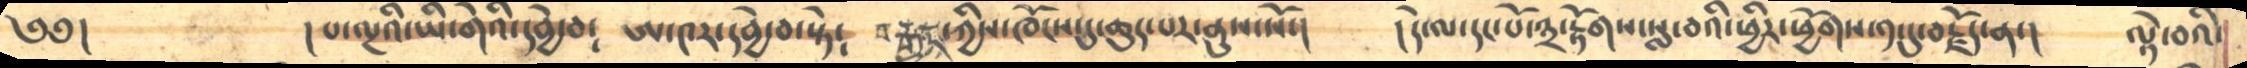༄༅།            །པ་ལྔའི་ཡི་གེའི་དབྱེ་བ༴    ཨ་༤ར་དབྱེ་བ་སྟེ༴    བརྒྱད་ཀྱིས་ཁོངས་དུ་ཆུད་པར་ནུས་སོ་།     །དེ་ལ་དང་པོ་༣་རྟོགས་སླ་བའི་ཕྱིར་ཕྱོགས་༡་དུ་བརྗོད་ན་།    ལྟེ་བའི་
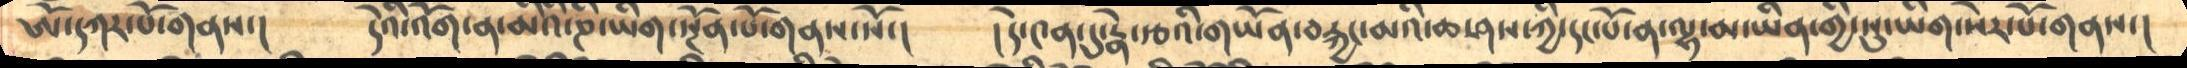ཨོཾ་དཀར་པོ་གནས་།      དེའི་འོག་ན་མིའི་ཎི་ཡིག་སྔོན་པོ་གནས་སོ་།     །དེ་༤ན་དུ་རྣེ་རྩའི་གཡོན་བརྐྱང་མའི་ཆ་ཤས་ཀྱི་དང་པོ་ན་ལྷ་མ་ཡིན་གྱི་སུ་ཡིག་སེར་པོ་གནས་།
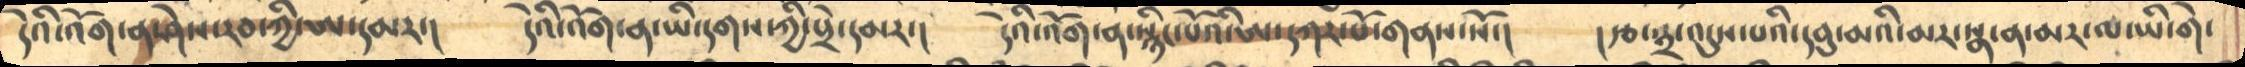དེའི་འོག་ན་ཤེས་རབ་ཀྱི་ཨ་དམར་།       དེའི་འོག་ན་ཡི་དགས་ཀྱི་པྲེ་དམར་།     དེའི་འོག་ན་སྙིང་པོའི་སྙིང་པོའི་ཨ་དཀར་པོ་གནས་སོ་།    །རྩ་༣་འདུས་པའི་དབུ་མའི་མར་སྣ་ན་མར་ལ་ཡི་གེ་
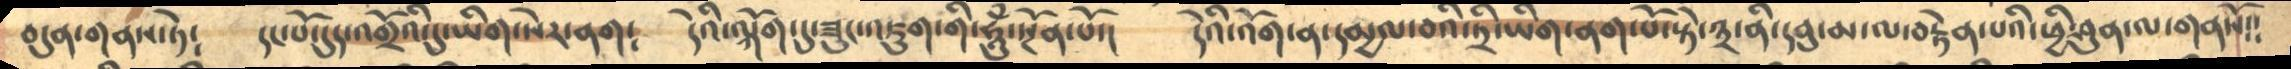བདུན་གནས་ཏེ༴      དང་པོ་དུད་འགྲོའི་དུ་ཡིག་སེར་ནག༴    དེའི་ལྐོག་དུ་ཟུང་འཇུག་གི་ཧཱུཾ་སྔོན་པོ་།    དེའི་འོག་ན་དམྱལ་བའི་ཏྲི་ཡིག་ནག་པོ་སྟེ་༣་ནི་དབུ་མ་ལ་བརྟེན་པའི་ཕྱི་ཤུན་ལ་གནསོ༴༴
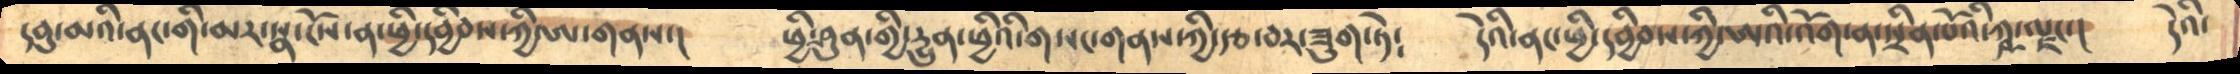དབུ་མའི་ནང་གི་མར་སྣ་ངོས་ན་ཕྱི་དབྱིབས་ཀྱི་ཨ་གནས་།     ཕྱི་ཤུན་གྱི་དྱུན་ཕྱིའི་གསང་གནས་ཀྱི་རྩ་བར་ཟུག་ཏེ༴    དེའི་ནང་ཕྱི་དབྱིབས་ཀྱི་ཨའི་འོག་ན་སྲིན་པོའི་ཀྵ་ལྗང་།    དེའི་
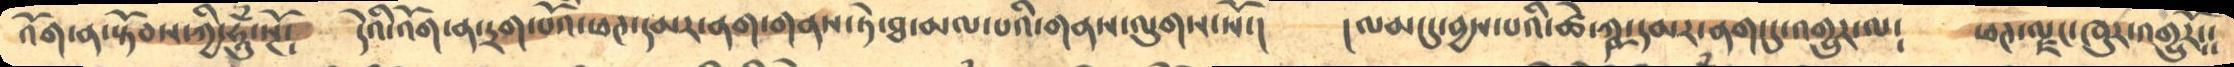འོག་ན་སྟོབས་ཀྱི་ཧཱུཾ་སྔོ༴     དེའི་འོག་ན་དྲག་པོའི་ཕཊ་དམར་ནག་གནས་ཏེ་ཐ་མལ་པའི་གནས་ལུགས་སོ་།     །ལམ་དུ་བྱས་པའི་ཚེ་ཀྵ་དམར་ནག་དུ་འགྱུར་ལ༴   ཕཊ་ལྗང་ཁུར་འགྱུརོ༴༴
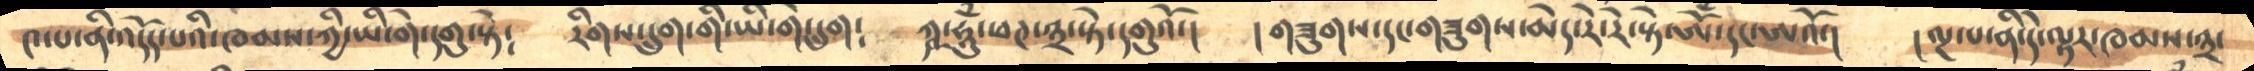༤་པ་ནི་འདོད་པའི་ཁམས་ཀྱི་ཡི་གེ་དགུ་སྟེ༴     རིགས་དྲུག་གི་ཡི་གེ་དྲུག༴    ཀྵ་ཧཱུཾ་ཕཊ་༣་སྟེ་དགུའོ་།     །གཟུགས་དང་གཟུགས་མེད་རེ་རེ་སྟེ་ཨོཾ་དང་ཨའོ་།    །ལྔ་པ་ནི་དེ་ལྟར་ཁམས་༣་
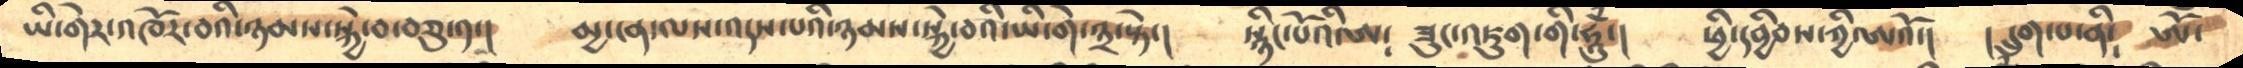ཡི་གེར་འཁོར་བའི་ཉམས་སྐྱེ་བ་བཅུ་༡་།    མྱ་ངན་ལས་འདས་པའི་ཉམས་སྐྱེ་བའི་ཡི་གེ་༣་སྟེ་།     སྙིང་པོའི་ཨ༴    ཟུང་འཇུག་གི་ཧཱུཾ་།   ཕྱི་དབྱིབས་ཀྱི་ཨའོ་།   ། དྲུག་པ་ནི༴  ཨོ་
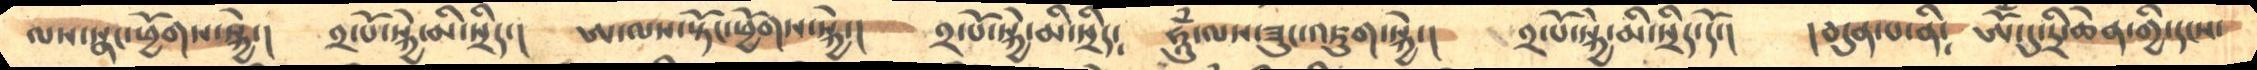ལས་སྣང་ཕྱོགས་སྐྱེ་།    ༢་པོ་སྐྱེ་མི་སྲིད།     ཨ་ལས་སྟོང་ཕྱོགས་སྐྱེ་།    ༢་པོ་སྐྱེ་མི་སྲིད༴     ཧཱུྃ་ལས་ཟུང་འཇུག་སྐྱེ་།   ༢་པོ་སྐྱེ་མི་སྲིད་དོ་།    །བདུན་པ་ནི༴    ཨོཾ་དུ་དྲི་ཆེན་གྱི་དངས་
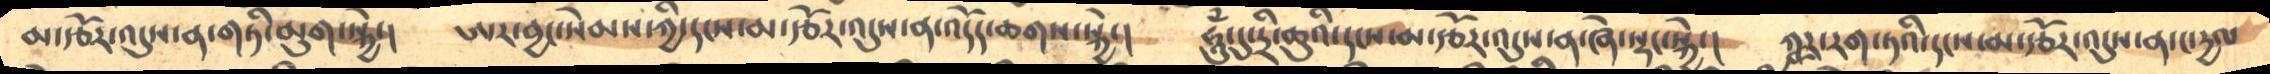མ་རྩོར་འདུས་ན་གཏི་མུག་སྐྱེ་།    ཨར་བྱང་སེམས་ཀྱི་དངས་མ་རྩོར་འདུས་ན་འདོད་ཆགས་སྐྱེ་།     ཧཱུཾ་དུ་དྲི་ཆུའི་དངས་མ་རྩོར་འདུས་ན་ཞེ་སྡང་སྐྱེ་།    ཀྵར་རག་ཏའི་དངས་མ་རྩོར་འདུས་ན་ང་དྱལ
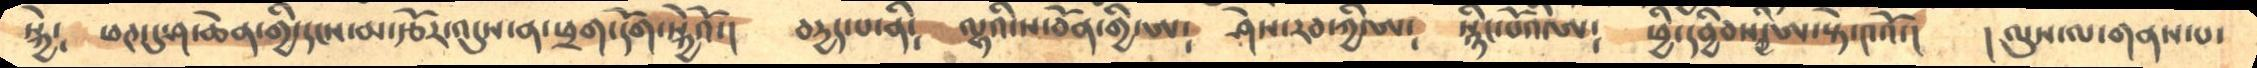སྐྱེ༴   ཕཊ་དུ་ཤ་ཆེན་གྱི་དངས་མ་རྩོར་འདུས་ན་ཕྲག་དོག་སྐྱེའོ་།   བདྱད་པ་ནི༴  ལྷའི་ས་བོན་གྱི་ཨ༴    ཤེར་རབ་ཀྱི་ཨ༴   སྙིང་པོའི་ཨ༴   ཕྱི་དབྱིབས་ཀྱི་ཨ་སྟེ་༤འོ་།   ། ལུས་ལ་གནས་པ་
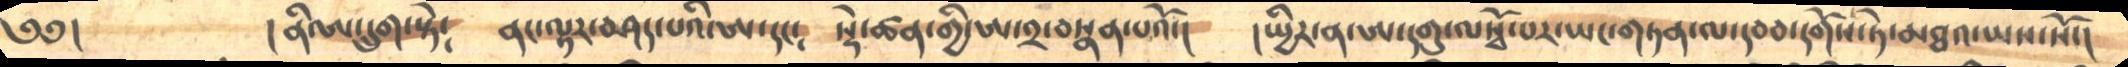༄༅།       །ནི་ཨ་དྲུག་སྟེ༴   ནང་ལྟར་བཤད་པའི་ཨ་དང༴   སྟེ་ཚན་གྱི་ཨ་༢་བསྣན་པའོ་།   །སྤྱིར་ན་ཨ་དགུ་ལསྭོ་པར་ཡང་གཏན་ལ་དབབ་དགོས་ཏེ་མཐའ་ཡས་སོ་།
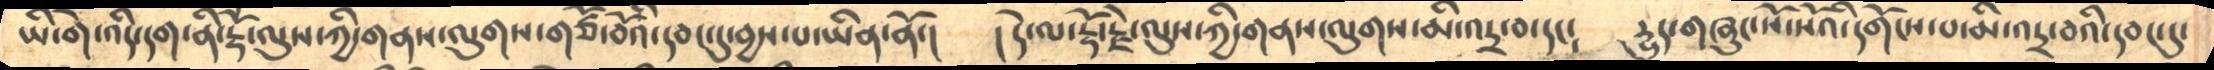ཡི་གེ་འདི་དག་ནི་རྡོ་ལུས་ཀྱི་གནས་ལུགས་གཙོ་བོའི་དབང་དུ་བྱས་པ་ཡིན་ནོ་།   །དེ་ལ་རྡོ་རྗེ་ལུས་ཀྱི་གནས་ལུགས་མི་འདྲ་བ་དང་།    ཏྱུད་གཞུང་སོ་སོའི་དགོངས་པ་མི་འདྲ་བའི་དབང་དུ་
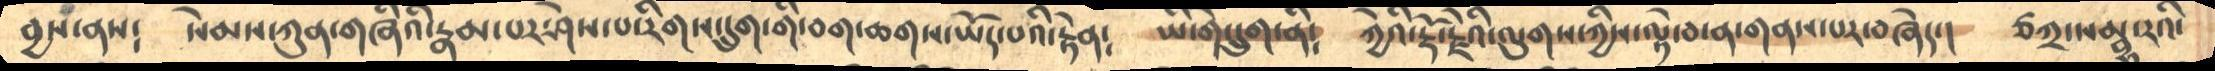བྱས་ནས༴   སེམས་ཀུན་གཞིའི་རྣམ་པར་ཤེས་པ་རིགས་དྲུག་གི་བག་ཆགས་ཡོད་པའི་རྟེན༴   ཡི་གེ་དྲུག་ནི༴    ཀྱེའི་རྡོ་རྗེའི་ལུགས་ཀྱིས་ལྟེ་བ་ན་གནས་པར་བཞེད་།   ཙཀྲ་སམྦྷ་རའི་
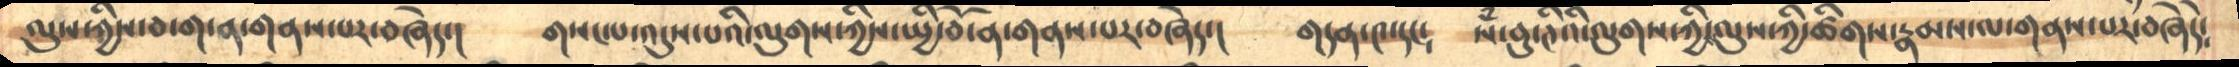ལུས་ཀྱིས་བ་ག་ན་གནས་པར་བཞེད་།    གསང་པ་འདུས་པའི་ལུགས་ཀྱིས་སྤྱི་བོ་ན་གནས་པར་བཞེད་།   གདན་༤་དང༴   སཾ་བུ་ཊིའི་ལུགས་ཀྱི་ལུས་ཀྱི་ཚིགས་རྣམས་ལ་གནས་པར་བཞེདེ༴
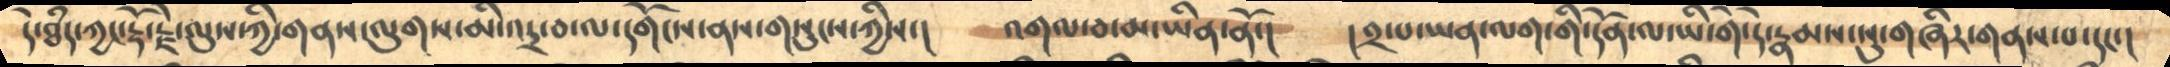དེ་ཐཾད་ཀྱང་རྡོ་རྗེ་ལུས་ཀྱི་གནས་ལུགས་མི་འདྲ་བ་ལ་དགོངས་ནས་གསུངས་ཀྱིས་།   འགལ་བ་མ་ཡིན་ནོ་།    །༢་པ་ཡན་ལག་གི་དོན་ལ་ཡི་གེ་དེ་རྣམས་སུ་གཞིར་གནས་པ་དང་།
